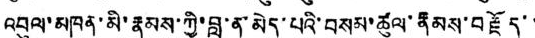འབུས་མཁན་མི་རྣམས་ཀྱི་བླ་ན་མེད་པའི་བསམ་ཚུལ་རྣམས་བརྗོད་་
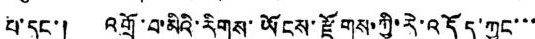པ་དང་། འགྲོ་བ་མིའི་རིགས་ཡོངས་རྫོགས་ཀྱི་རེ་འདོད་ཀྱང་་་
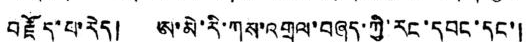བརྗོད་པ་རེད། ཨ་མེ་རི་ཀས་འགྲུལ་བཞུད་ཀྱི་རང་དབང་དང་།
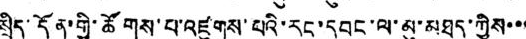སྲིད་དོན་གྱི་ཚོགས་པ་འཛུགས་པའི་རང་དབང་ལ་མུ་མཐུད་ཀྱིས་་་
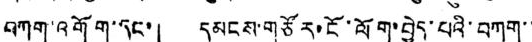བཀག་འགོག་དང་། དམངས་གཙོར་ངོ་ལོག་བྱེད་པའི་བཀག་་
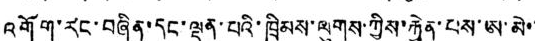འགོག་རང་བཞིན་དང་ལྡན་པའི་ཁྲིམས་ལུགས་ཀྱིས་རྐྱེན་པས་ཨ་མེ་་
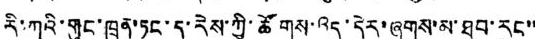རི་ཀིའ་གུང་ཁྲན་ཏང་ད་རེས་ཀྱི་ཚོགས་འདུ་དེར་ཞུགས་མ་ཐུབ་རུང་་
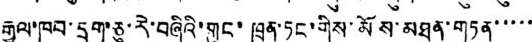རྒྱལ་ཁབ་དྲུག་ཅུ་རེ་བཞིའི་གུང་ཁྲན་ཏང་གིས་མོས་མཐུན་གཏན་་་་་
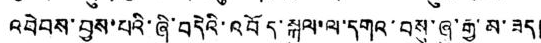འབེབས་བྱས་པའི་ཞི་བདེའི་འབོད་སྐུལ་ལ་དགའ་བསུ་ཞུ་རྒྱུ་མ་ཟད།
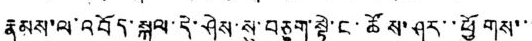རྣམས་ལ་འབོད་སྐུལ་དེ་ཤེས་སུ་བཅུག་སྟེ་ང་ཚོས་ཤར་་ཕྱོགས་་་
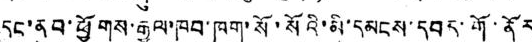དང་ནུབ་ཕྱོགས་རྒྱལ་ཁབ་ཁག་སོ་སོའི་མི་དམངས་དབད་གོ་ནོར
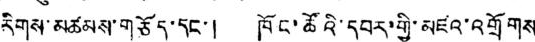རིགས་མཚམས་གཅོད་དང་། ཁོང་ཚོའི་དབར་གྱི་མཛའ་འགྲོགས
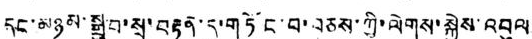དང་མཉམ་སྒྲུབ་སྲ་བརྟན་དུ་གཏོང་བ་བཅས་ཀྱི་ལེགས་སྐྱེས་འབུལ་
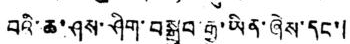བའི་ཆ་ཤས་ཤིག་བསྒྲུབ་རྒྱུ་ཡིན་ཞེས་དང་།
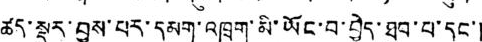ཚད་སྡུར་བྱས་པར་དམག་འཁྲུག་མི་ཡོང་བ་བྱེད་ཐུབ་པ་དང་།
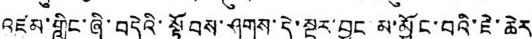འཛམ་གླིང་ཞི་བདེའི་སྟོབས་ཤུགས་དེ་སྔར་བྱུང་མ་མྱོང་བའི་ཇེ་ཆེར་
